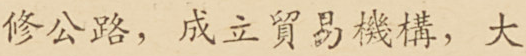修公路，成立貿易機構，大
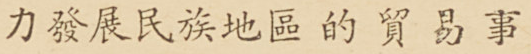力發展民族地區的貿易事
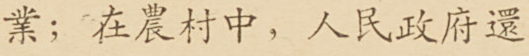業；在農村中，人民政府還
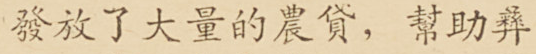發放了大量的農貸，幫助彝
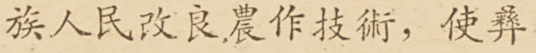族人民改良農作技術，使彝
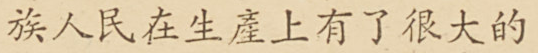族人民在生產上有了很大的
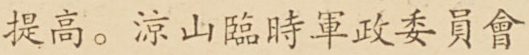提高。涼山臨時軍政委員會
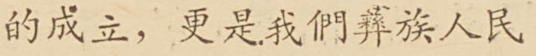的成立，更是我們彝族人民
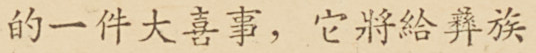的一件大喜事，它將給彝族
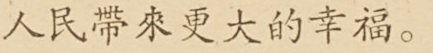人民帶來更大的幸福。
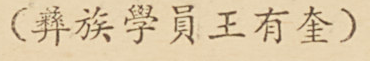（彝族學員王有奎）
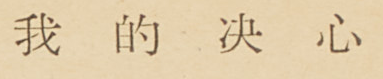我 的 决 心
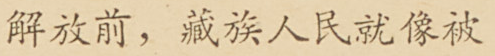解放前，藏族人民就像被
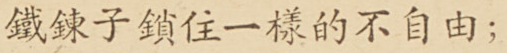鐵鍊子鎖住一樣的不自由；
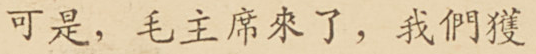可是，毛主席來了，我們獲
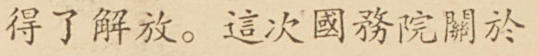得了解放。這次國務院關於
